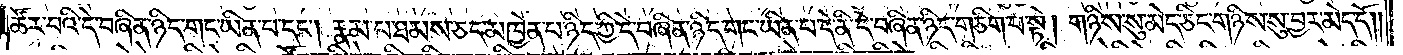ཚོར་བའི་དེ་བཞིན་ཉིད་གང་ཡིན་པ་དང༌། རྣམ་པ་ཐམས་ཅད་མཁྱེན་པ་ཉིད་ཀྱི་དེ་བཞིན་ཉིད་གང་ཡིན་པ་དེ་ནི་དེ་བཞིན་ཉིད་གཅིག་པ་སྟེ། གཉིས་སུ་མེད་ཅིང་གཉིས་སུ་བྱར་མེད་དོ༎
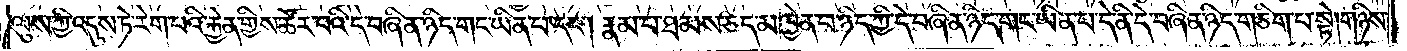ལུས་ཀྱི་འདུས་ཏེ་རེག་པའི་རྐྱེན་གྱིས་ཚོར་བའི་དེ་བཞིན་ཉིད་གང་ཡིན་པ་དང༌། རྣམ་པ་ཐམས་ཅད་མཁྱེན་པ་ཉིད་ཀྱི་དེ་བཞིན་ཉིད་གང་ཡིན་པ་དེ་ནི་དེ་བཞིན་ཉིད་གཅིག་པ་སྟེ། གཉིས་
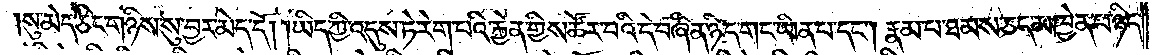སུ་མེད་ཅིང་གཉིས་སུ་བྱར་མེད་དོ། །ཡིད་ཀྱི་འདུས་ཏེ་རེག་པའི་རྐྱེན་གྱིས་ཚོར་བའི་དེ་བཞིན་ཉིད་གང་ཡིན་པ་དང༌། རྣམ་པ་ཐམས་ཅད་མཁྱེན་པ་ཉིད་
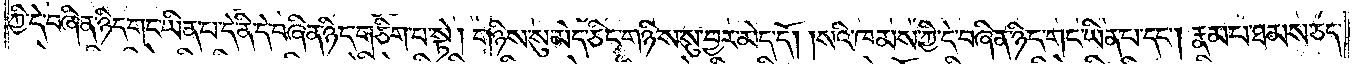ཀྱི་དེ་བཞིན་ཉིད་གང་ཡིན་པ་དེ་ནི་དེ་བཞིན་ཉིད་གཅིག་པ་སྟེ། གཉིས་སུ་མེད་ཅིང་གཉིས་སུ་བྱར་མེད་དོ། །སའི་ཁམས་ཀྱི་དེ་བཞིན་ཉིད་གང་ཡིན་པ་དང༌། རྣམ་པ་ཐམས་ཅད་
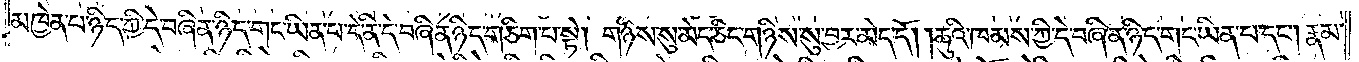མཁྱེན་པ་ཉིད་ཀྱི་དེ་བཞིན་ཉིད་གང་ཡིན་པ་དེ་ནི་དེ་བཞིན་ཉིད་གཅིག་པ་སྟེ། གཉིས་སུ་མེད་ཅིང་གཉིས་སུ་བྱར་མེད་དོ། །ཆུའི་ཁམས་ཀྱི་དེ་བཞིན་ཉིད་གང་ཡིན་པ་དང༌། རྣམ་
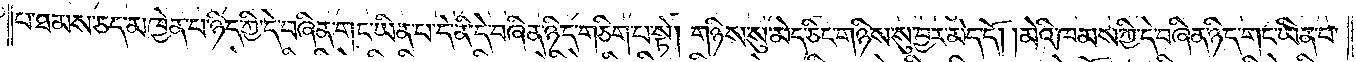པ་ཐམས་ཅད་མཁྱེན་པ་ཉིད་ཀྱི་དེ་བཞིན་ཉིད་གང་ཡིན་པ་དེ་ནི་དེ་བཞིན་ཉིད་གཅིག་པ་སྟེ། གཉིས་སུ་མེད་ཅིང་གཉིས་སུ་བྱར་མེད་དོ། །མེའི་ཁམས་ཀྱི་དེ་བཞིན་ཉིད་གང་ཡིན་པ་
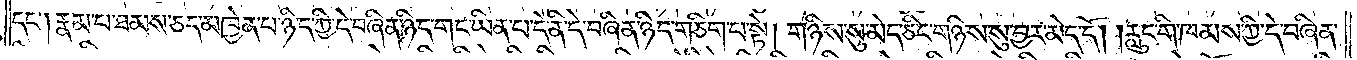དང༌། རྣམ་པ་ཐམས་ཅད་མཁྱེན་པ་ཉིད་ཀྱི་དེ་བཞིན་ཉིད་གང་ཡིན་པ་དེ་ནི་དེ་བཞིན་ཉིད་གཅིག་པ་སྟེ། གཉིས་སུ་མེད་ཅིང་གཉིས་སུ་བྱར་མེད་དོ། །རླུང་གི་ཁམས་ཀྱི་དེ་བཞིན་
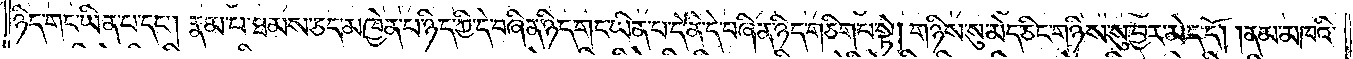ཉིད་གང་ཡིན་པ་དང༌། རྣམ་པ་ཐམས་ཅད་མཁྱེན་པ་ཉིད་ཀྱི་དེ་བཞིན་ཉིད་གང་ཡིན་པ་དེ་ནི་དེ་བཞིན་ཉིད་གཅིག་པ་སྟེ། གཉིས་སུ་མེད་ཅིང་གཉིས་སུ་བྱར་མེད་དོ། །ནམ་མཁའི་
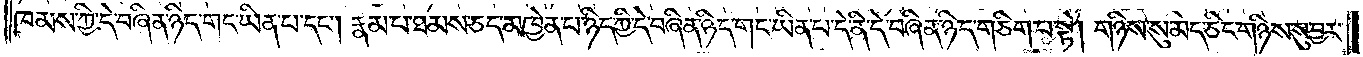ཁམས་ཀྱི་དེ་བཞིན་ཉིད་གང་ཡིན་པ་དང༌། རྣམ་པ་ཐམས་ཅད་མཁྱེན་པ་ཉིད་ཀྱི་དེ་བཞིན་ཉིད་གང་ཡིན་པ་དེ་ནི་དེ་བཞིན་ཉིད་གཅིག་པ་སྟེ། གཉིས་སུ་མེད་ཅིང་གཉིས་སུ་བྱར་
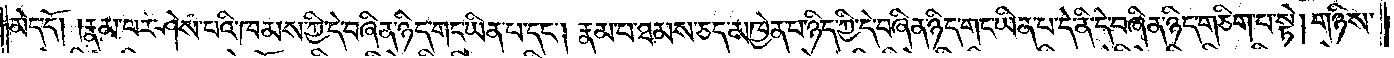མེད་དོ། །རྣམ་པར་ཤེས་པའི་ཁམས་ཀྱི་དེ་བཞིན་ཉིད་གང་ཡིན་པ་དང༌། རྣམ་པ་ཐམས་ཅད་མཁྱེན་པ་ཉིད་ཀྱི་དེ་བཞིན་ཉིད་གང་ཡིན་པ་དེ་ནི་དེ་བཞིན་ཉིད་གཅིག་པ་སྟེ། གཉིས་
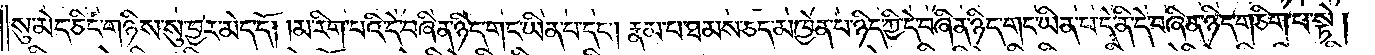སུ་མེད་ཅིང་གཉིས་སུ་བྱར་མེད་དོ། །མ་རིག་པའི་དེ་བཞིན་ཉིད་གང་ཡིན་པ་དང༌། རྣམ་པ་ཐམས་ཅད་མཁྱེན་པ་ཉིད་ཀྱི་དེ་བཞིན་ཉིད་གང་ཡིན་པ་དེ་ནི་དེ་བཞིན་ཉིད་གཅིག་པ་སྟེ།
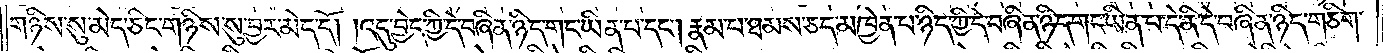གཉིས་སུ་མེད་ཅིང་གཉིས་སུ་བྱར་མེད་དོ། །འདུ་བྱེད་ཀྱི་དེ་བཞིན་ཉིད་གང་ཡིན་པ་དང༌། རྣམ་པ་ཐམས་ཅད་མཁྱེན་པ་ཉིད་ཀྱི་དེ་བཞིན་ཉིད་གང་ཡིན་པ་དེ་ནི་དེ་བཞིན་ཉིད་གཅིག་
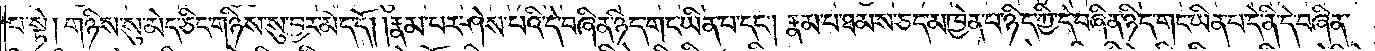པ་སྟེ། གཉིས་སུ་མེད་ཅིང་གཉིས་སུ་བྱར་མེད་དོ། །རྣམ་པར་ཤེས་པའི་དེ་བཞིན་ཉིད་གང་ཡིན་པ་དང༌། རྣམ་པ་ཐམས་ཅད་མཁྱེན་པ་ཉིད་ཀྱི་དེ་བཞིན་ཉིད་གང་ཡིན་པ་དེ་ནི་དེ་བཞིན་
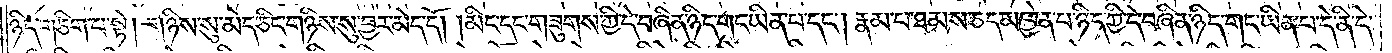ཉིད་གཅིག་པ་སྟེ། གཉིས་སུ་མེད་ཅིང་གཉིས་སུ་བྱར་མེད་དོ། །མིང་དང་གཟུགས་ཀྱི་དེ་བཞིན་ཉིད་གང་ཡིན་པ་དང༌། རྣམ་པ་ཐམས་ཅད་མཁྱེན་པ་ཉིད་ཀྱི་དེ་བཞིན་ཉིད་གང་ཡིན་པ་དེ་ནི་དེ་
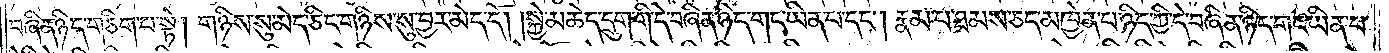བཞིན་ཉིད་གཅིག་པ་སྟེ། གཉིས་སུ་མེད་ཅིང་གཉིས་སུ་བྱར་མེད་དོ། །སྐྱེ་མཆེད་དྲུག་གི་དེ་བཞིན་ཉིད་གང་ཡིན་པ་དང༌། རྣམ་པ་ཐམས་ཅད་མཁྱེན་པ་ཉིད་ཀྱི་དེ་བཞིན་ཉིད་གང་ཡིན་པ་
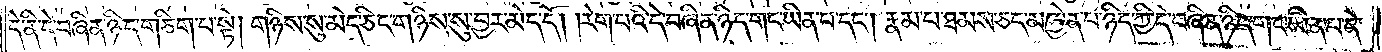དེ་ནི་དེ་བཞིན་ཉིད་གཅིག་པ་སྟེ། གཉིས་སུ་མེད་ཅིང་གཉིས་སུ་བྱར་མེད་དོ། །རེག་པའི་དེ་བཞིན་ཉིད་གང་ཡིན་པ་དང༌། རྣམ་པ་ཐམས་ཅད་མཁྱེན་པ་ཉིད་ཀྱི་དེ་བཞིན་ཉིད་གང་ཡིན་པ་དེ་
